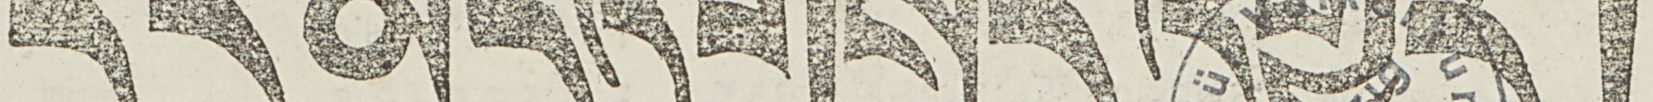དར་མདོའི་གསར་འགྱུར།
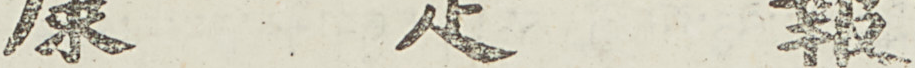康 定 報
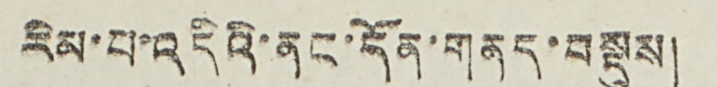རིམ་པ་འདིའི་ནང་དོན་གནད་བསྡུས།
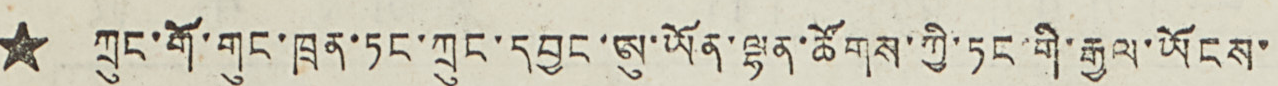★ ཀྲུང་གོ་གུང་ཁྲན་ཏང་ཀྲུང་དབྱང་ཨུ་ཡོན་ལྷན་ཚོགས་ཀྱི་ཏང་གི་རྒྱལ་ཡོངས་
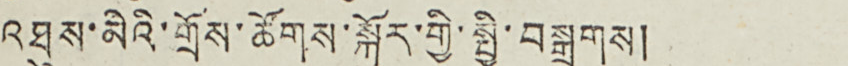འཐུས་མིའི་གྲོས་ཚོགས་སྐོར་གྱི་སྤྱི་བསྒྲགས།
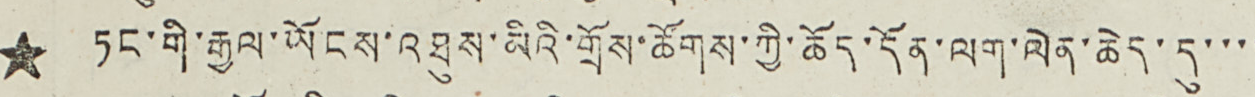★ ཏང་གི་རྒྱལ་ཡོངས་འཐུས་མིའི་གྲོས་ཚོགས་ཀྱི་ཆོད་དོན་ལག་ལེན་ཆེད་དུ་་་་
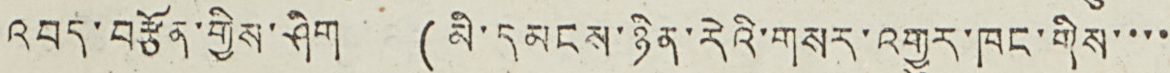འབད་བརྩོན་གྱིས་ཤིག (མི་དམངས་ཉིན་རེའི་གསར་འགྱུར་ཁང་གིས་་་་
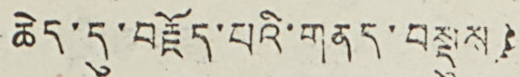ཆེད་དུ་བརྗོད་པའི་གནད་བསྡུས)
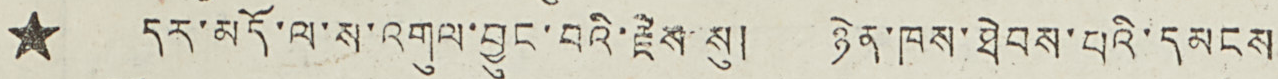★ དར་མདོ་ལ་ས་འགུལ་བྱུང་བའི་རྗེས་སུ། ཉེན་ཁས་ཐེབས་པའི་དམངས
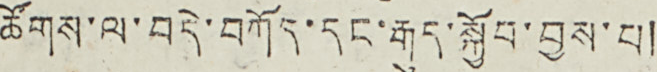ཚོགས་ལ་བདེ་བཀོད་དང་རྒུད་སྐྱོབ་བྱས་པ།
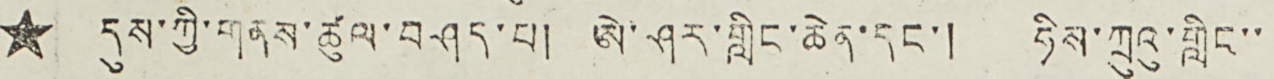★ དུས་ཀྱི་གནས་ཚུལ་བཤད་པ། ཨེ་ཤར་གླིང་ཆེན་དང་། ཧིས་ཀྲུའུ་གླིང་་
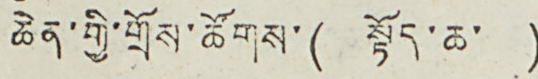ཆེན་གྱི་གྲོས་ཚོགས་( སྟོད་ཆ་ )
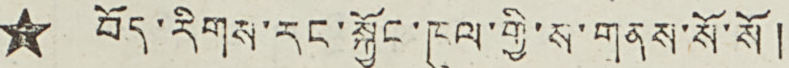★ བོད་རིགས་རང་སྐྱོང་ཁུལ་གྱི་ས་གནས་སོ་སོ།
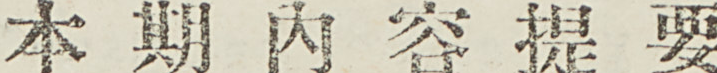本 期 內 容 提 要
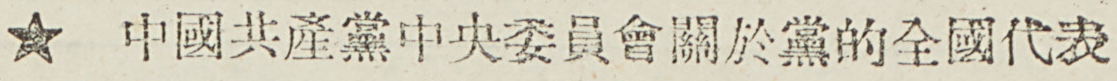★ 中國共產黨中央委員會關於黨的全國代表
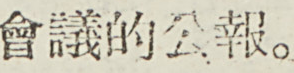會議的公報。
